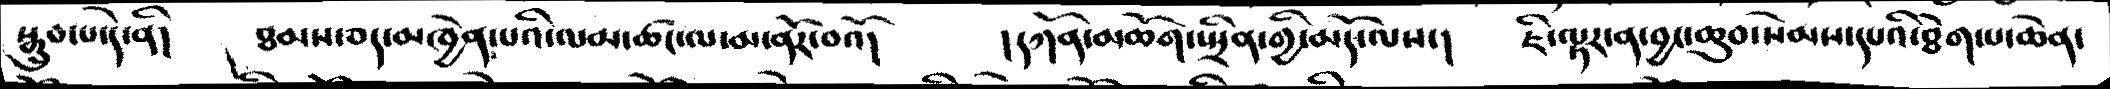སྒྲུབ་པ་དེ་ནི།    ཐམས་ཅད་མཁྱེན་པའི་ལམ་ཚང་ལ་མ་ནོར་བའོ།     །དཀོན་མཆོག་སྤྲིན་གྱི་མདོ་ལས་།    ཇི་ལྟར་ན་བྱང་ཆུབ་སེམས་དཔའི་ཐེག་པ་ཆེན་
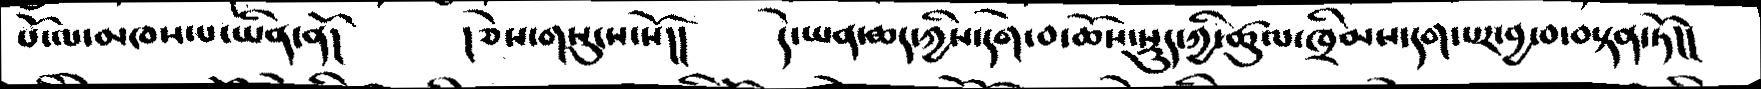པོ་ལ་མཁས་པ་ཡིན་ནོ།    །ཅེས་གསུངས་སོ།།    དེ་ཡན་ཆད་ཀྱིས་དགེ་བ་ཆོས་སྡུད་ཀྱི་ཚུལ་ཁྲིམས་དག་པར་བྱ་བ་བསྟན་ཏོ།།
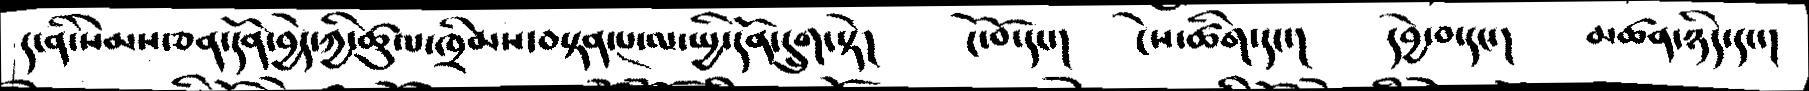ད་ནི་སེམས་ཅན་དོན་བྱེད་ཀྱི་ཚུལ་ཁྲིམས་བསྟན་པ་ལ་སྤྱི་དོན་དྲུག་སྟེ།    ངོ་བོ་དང་།   ངེས་ཚིག་དང་།   དབྱེ་བ་དང་།   མཚན་ཉིད་དང་།
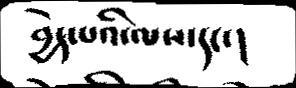བྱེད་པའི་ལས་དང་།
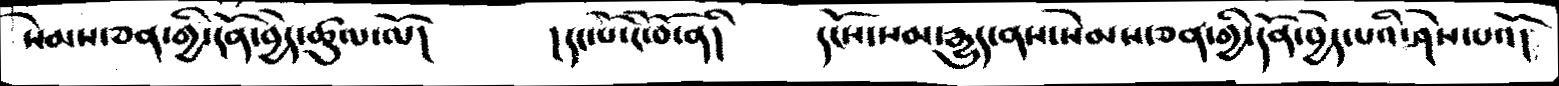སེམས་ཅན་གྱི་དོན་བྱེད་ཚུལ་ལོ།    །དང་པོ་ངོ་བོ་ནི།   དངོས་སམ་རྒྱུད་ནས་སེམས་ཅན་གྱི་དོན་བྱེད་པའི་ཤེས་པའོ།
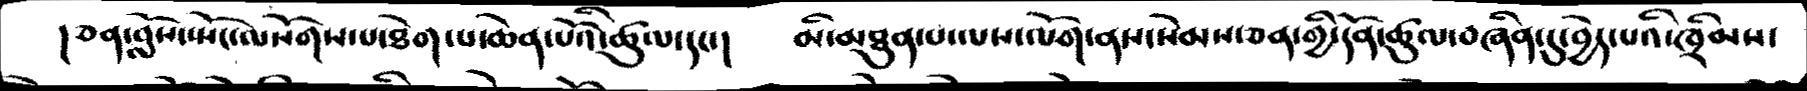།ཅན་བློས་སྤོང་ལསོགས་པ་ཐེག་པ་ཆེན་པོའི་ཚུལ་དང་།    མི་མཐུན་པ་ལས་ལོག་ནས་སེམས་ཅན་གྱི་དོན་ཚུལ་བཞིན་དུ་བྱེད་པའི་ཁྲིམས་
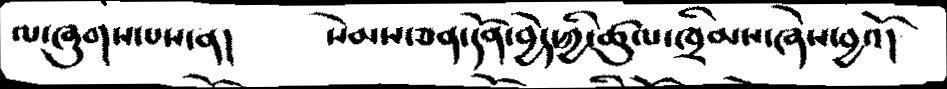ལ་ཞུགས་པས་ན།     སེམས་ཅན་དོན་བྱེད་ཀྱི་ཚུལ་ཁྲིམས་ཞེས་བྱའོ།
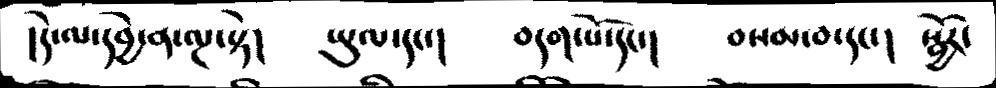།དེ་ལ་དབྱེ་ན་ལྔ་སྟེ།    ཡུལ་དང་།     བདག་པོ་དང་།    བསམ་བ་དང་།   སྦྱོར་
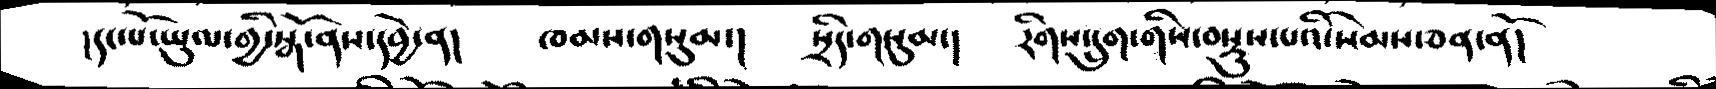།དང་པོ་ཡུལ་གྱི་སྒོ་ནས་དབྱེ་ན།   ཁམས་གསུམ་།   སྲིད་གསུམ་།   རིགས་དྲུག་གིས་བསྡུས་པའི་སེམས་ཅན་ནོ།
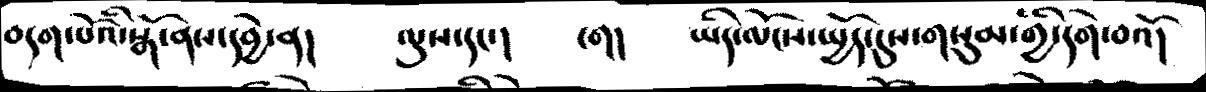བདག་པོའི་སྒོ་ནས་དབྱེ་ན།   ལུས་དང་།   ངག།   ཡིད་ལོངས་སྤྱོད་དུས་གསུམ་གྱི་དགེ་བའོ།
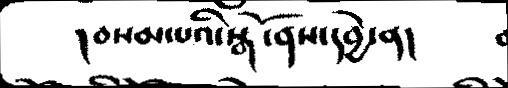།བསམ་པའི་སྒོ་ནས་དབྱེ་ན།
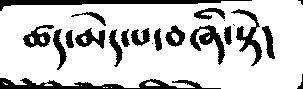ཚད་མེད་པ་བཞི་སྟེ།
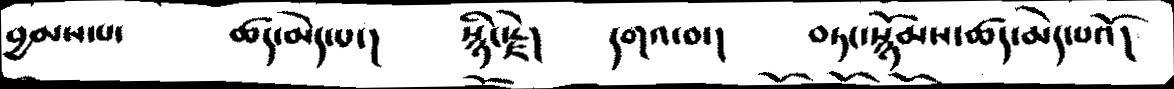བྱམས་པ་    ཚད་མེད་པ་།    སྙིང་རྗེ།    དགའ་བ་།    བཏང་སྙོམས་ཚད་མེད་པའོ།
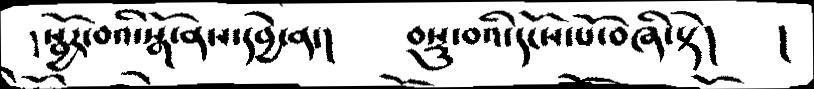།སྦྱོར་བའི་སྒོ་ནས་དབྱེ་ན་།    བསྡུ་བའི་དངོས་པོ་བཞི་སྟེ།    །
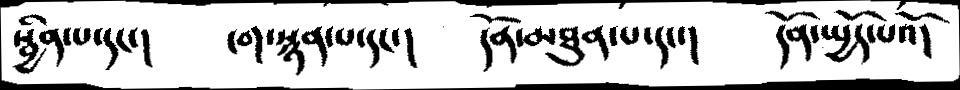སྦྱིན་པ་དང་།    ངག་སྙན་པ་དང་།    དོན་མཐུན་པ་དང་།    དོན་སྤྱོད་པའོ།
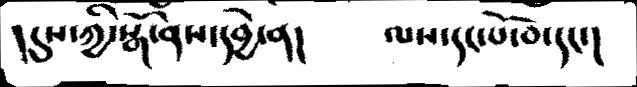།དུས་ཀྱི་སྒོ་ནས་དབྱེ་ན།    ལས་དང་པོ་བ་དང་།
